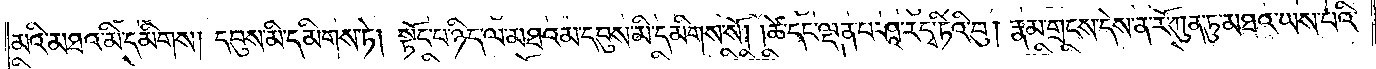མའི་མཐའ་མི་དམིགས། དབུས་མི་དམིགས་ཏེ། སྟོང་པ་ཉིད་ལ་མཐའམ་དབུས་མི་དམིགས་སོ། །ཚེ་དང་ལྡན་པ་ཤཱ་ར་དྭ་ཏིའི་བུ། རྣམ་གྲངས་དེས་ན་རོ་ཀུན་ཏུ་མཐའ་ཡས་པའི་
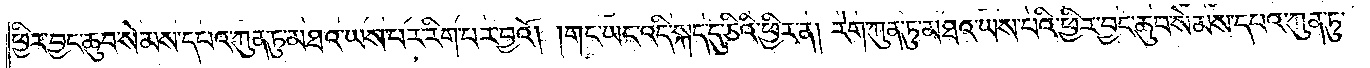ཕྱིར་བྱང་ཆུབ་སེམས་དཔའ་ཀུན་ཏུ་མཐའ་ཡས་པར་རིག་པར་བྱའོ། །གང་ཡང་འདི་སྐད་དུ་ཅིའི་ཕྱིར་ན། རེག་ཀུན་ཏུ་མཐའ་ཡས་པའི་ཕྱིར་བྱང་ཆུབ་སེམས་དཔའ་ཀུན་ཏུ་
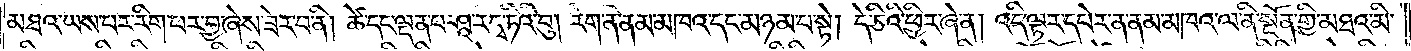མཐའ་ཡས་པར་རིག་པར་བྱ་ཞེས་ཟེར་བ་ནི། ཚེ་དང་ལྡན་པ་ཤཱ་ར་དྭ་ཏིའི་བུ། རེག་ནི་ནམ་མཁའ་དང་མཉམ་པ་སྟེ། དེ་ཅིའི་ཕྱིར་ཞེ་ན། འདི་ལྟར་དཔེར་ན་ནམ་མཁའ་ལ་ནི་སྔོན་གྱི་མཐའ་མི་
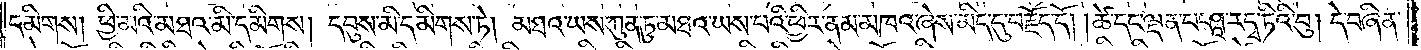དམིགས། ཕྱི་མའི་མཐའ་མི་དམིགས། དབུས་མི་དམིགས་ཏེ། མཐའ་ཡས་ཀུན་ཏུ་མཐའ་ཡས་པའི་ཕྱིར་ནམ་མཁའ་ཞེས་མིང་དུ་བརྗོད་དོ། །ཚེ་དང་ལྡན་པ་ཤཱ་ར་དྭ་ཏིའི་བུ། དེ་བཞིན་
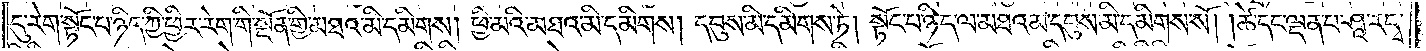དུ་རེག་སྟོང་པ་ཉིད་ཀྱི་ཕྱིར་རེག་གི་སྔོན་གྱི་མཐའ་མི་དམིགས། ཕྱི་མའི་མཐའ་མི་དམིགས། དབུས་མི་དམིགས་ཏེ། སྟོང་པ་ཉིད་ལ་མཐའམ་དབུས་མི་དམིགས་སོ། །ཚེ་དང་ལྡན་པ་ཤཱ་ར་དྭ་
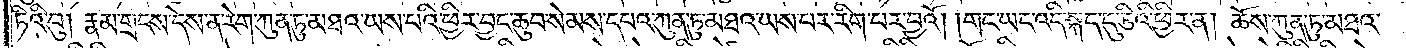ཏིའི་བུ། རྣམ་གྲངས་དེས་ན་རེག་ཀུན་ཏུ་མཐའ་ཡས་པའི་ཕྱིར་བྱང་ཆུབ་སེམས་དཔའ་ཀུན་ཏུ་མཐའ་ཡས་པར་རིག་པར་བྱའོ། །གང་ཡང་འདི་སྐད་དུ་ཅིའི་ཕྱིར་ན། ཆོས་ཀུན་ཏུ་མཐའ་
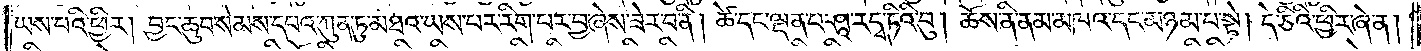ཡས་པའི་ཕྱིར། བྱང་ཆུབ་སེམས་དཔའ་ཀུན་ཏུ་མཐའ་ཡས་པར་རིག་པར་བྱ་ཞེས་ཟེར་བ་ནི། ཚེ་དང་ལྡན་པ་ཤཱ་ར་དྭ་ཏིའི་བུ། ཆོས་ནི་ནམ་མཁའ་དང་མཉམ་པ་སྟེ། དེ་ཅིའི་ཕྱིར་ཞེ་ན།
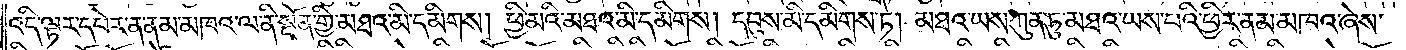འདི་ལྟར་དཔེར་ན་ནམ་མཁའ་ལ་ནི་སྔོན་གྱི་མཐའ་མི་དམིགས། ཕྱི་མའི་མཐའ་མི་དམིགས། དབུས་མི་དམིགས་ཏེ། མཐའ་ཡས་ཀུན་ཏུ་མཐའ་ཡས་པའི་ཕྱིར་ནམ་མཁའ་ཞེས་
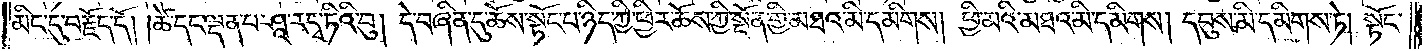མིང་དུ་བརྗོད་དོ། །ཚེ་དང་ལྡན་པ་ཤཱ་ར་དྭ་ཏིའི་བུ། དེ་བཞིན་དུ་ཆོས་སྟོང་པ་ཉིད་ཀྱི་ཕྱིར་ཆོས་ཀྱི་སྔོན་གྱི་མཐའ་མི་དམིགས། ཕྱི་མའི་མཐའ་མི་དམིགས། དབུས་མི་དམིགས་ཏེ། སྟོང་
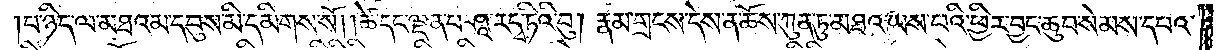པ་ཉིད་ལ་མཐའམ་དབུས་མི་དམིགས་སོ། །ཚེ་དང་ལྡན་པ་ཤཱ་ར་དྭ་ཏིའི་བུ། རྣམ་གྲངས་དེས་ན་ཆོས་ཀུན་ཏུ་མཐའ་ཡས་པའི་ཕྱིར་བྱང་ཆུབ་སེམས་དཔའ་
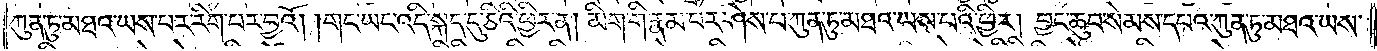ཀུན་ཏུ་མཐའ་ཡས་པར་རིག་པར་བྱའོ། །གང་ཡང་འདི་སྐད་དུ་ཅིའི་ཕྱིར་ན། མིག་གི་རྣམ་པར་ཤེས་པ་ཀུན་ཏུ་མཐའ་ཡས་པའི་ཕྱིར། བྱང་ཆུབ་སེམས་དཔའ་ཀུན་ཏུ་མཐའ་ཡས་
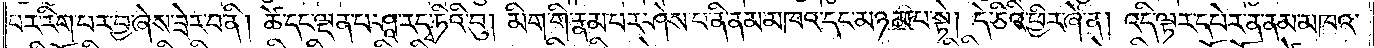པར་རིག་པར་བྱ་ཞེས་ཟེར་བ་ནི། ཚེ་དང་ལྡན་པ་ཤཱ་ར་དྭ་ཏིའི་བུ། མིག་གི་རྣམ་པར་ཤེས་པ་ནི་ནམ་མཁའ་དང་མཉམ་པ་སྟེ། དེ་ཅིའི་ཕྱིར་ཞེ་ན། འདི་ལྟར་དཔེར་ན་ནམ་མཁའ་
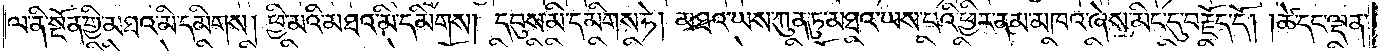ལ་ནི་སྔོན་གྱི་མཐའ་མི་དམིགས། ཕྱི་མའི་མཐའ་མི་དམིགས། དབུས་མི་དམིགས་ཏེ། མཐའ་ཡས་ཀུན་ཏུ་མཐའ་ཡས་པའི་ཕྱིར་ནམ་མཁའ་ཞེས་མིང་དུ་བརྗོད་དོ། །ཚེ་དང་ལྡན་
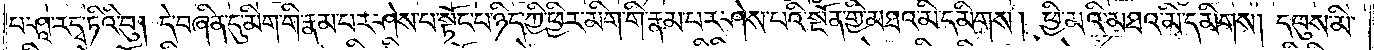པ་ཤཱ་ར་དྭ་ཏིའི་བུ། དེ་བཞིན་དུ་མིག་གི་རྣམ་པར་ཤེས་པ་སྟོང་པ་ཉིད་ཀྱི་ཕྱིར་མིག་གི་རྣམ་པར་ཤེས་པའི་སྔོན་གྱི་མཐའ་མི་དམིགས། ཕྱི་མའི་མཐའ་མི་དམིགས། དབུས་མི་
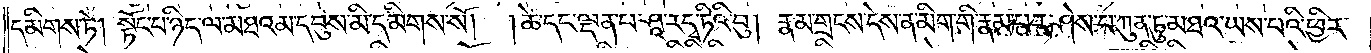དམིགས་ཏེ། སྟོང་པ་ཉིད་ལ་མཐའམ་དབུས་མི་དམིགས་སོ། །ཚེ་དང་ལྡན་པ་ཤཱ་ར་དྭ་ཏིའི་བུ། རྣམ་གྲངས་དེས་ན་མིག་གི་རྣམ་པར་ཤེས་པ་ཀུན་ཏུ་མཐའ་ཡས་པའི་ཕྱིར་
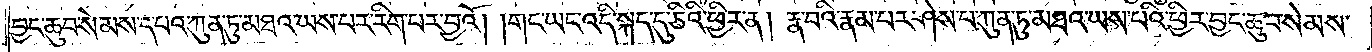བྱང་ཆུབ་སེམས་དཔའ་ཀུན་ཏུ་མཐའ་ཡས་པར་རིག་པར་བྱའོ། །གང་ཡང་འདི་སྐད་དུ་ཅིའི་ཕྱིར་ན། རྣ་བའི་རྣམ་པར་ཤེས་པ་ཀུན་ཏུ་མཐའ་ཡས་པའི་ཕྱིར་བྱང་ཆུབ་སེམས་
